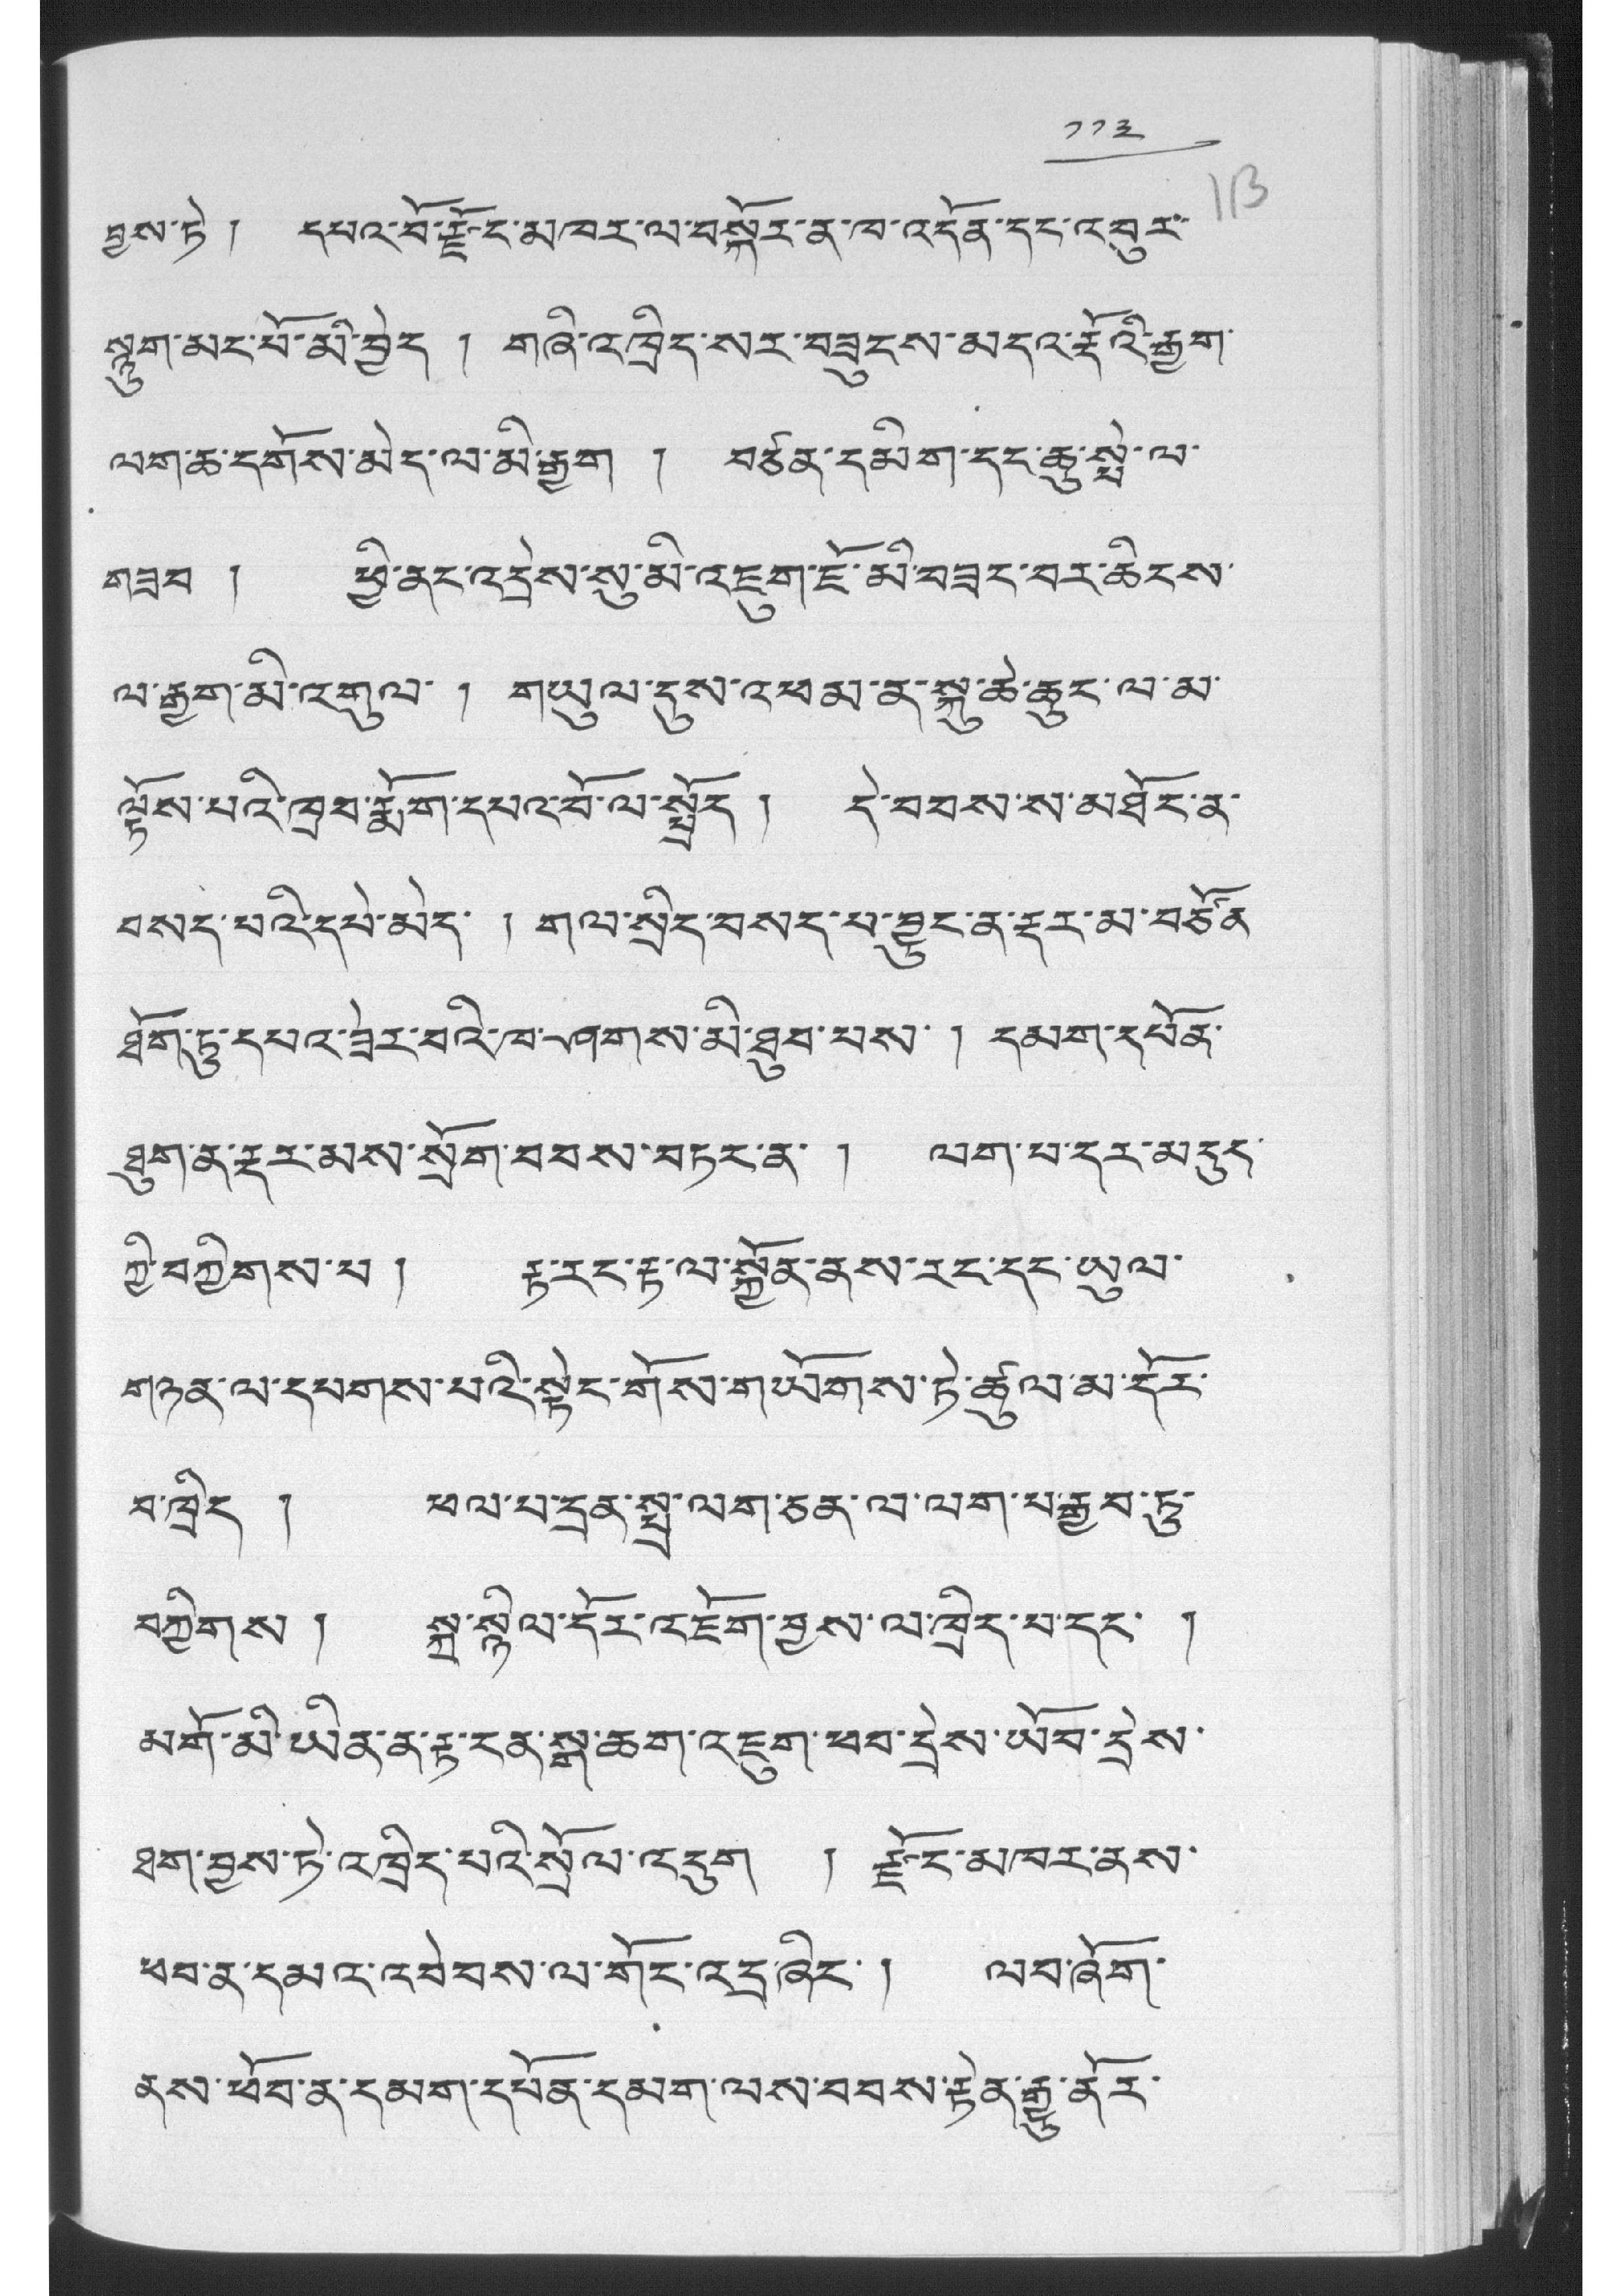༡༡༣
བྱས་ཏེ ། དཔའ་བོ་རྫོང་མཁར་ལ་བསྐོར་ན་ཁ་འདོན་དང་འབུར་
སྙུག་མང་པོ་མི་བྱེད ། གཞི་འཁྲིད་སར་བཟུངས་མདའ་རྡོའི་རྒྱག་
ལག་ཆ་དགོས་མེད་ལ་མི་རྒྱག ། བཙན་དམིག་དང་ཆུ་སསྤེ་ལ་
གཟབ ། ཕྱི་ནང་འདྲེས་སུ་མི་འཇུག་ཇོ་མི་བཟང་བར་ཆིངས་
ལ་རྒྱུག་མི་འགུལ་ ། གཡུལ་དུས་འཕམ་ན་སྐུ་ཆེ་ཆུང་ལ་མ་
ལྟོས་པའི་ཁྲབ་རྨོག་དཔའ་བོ་ལ་སྤྲོད ། དེ་བབས་ས་མཐོང་ན་
བསད་པའི་དཔེ་མེད་ ། གལ་སྲིད་བསད་པ་བྱུང་ན་རྡར་མ་བཙོན་
ཐོག་ཏུ་དཔའ་ཟེར་བའི་ཁ་ཤགས་མི་ཐུབ་པས་ ། དམག་དཔོན་
ཐུག་ན་རྡར་མས་སྲོག་བབས་བཏར་ན་ ། ལག་པ་དར་མདུད་
ཀྱི་བཀྱིགས་པ ། རྟ་རང་རྟ་ལ་སྐྱོན་ནས་རང་དང་ཡུལ་
གཉན་ལ་དམགས་པའི་སྟེང་གོས་གཡོགས་ཏེ་ཚུལ་མ་དོར་
བ་ཁྲིད ། ཕལ་པ་དྲན་སྤྲ་ལག་ཅན་ལ་ལག་མ་རྒྱབ་ཏུ་
བཀྱིགས ། སྐྲ་སྙིལ་དོར་འཇོག་བྱས་ལ་ཁྲིད་པ་དང་ །
མགོ་མི་ཡིན་ན་རྟ་ངན་སྒ་ཆག་འཇུག་ཕབ་དྲེས་ཡོབ་དྲེས་
ཐག་བྱས་ཏེ་འཁྲིད་པའི་སྲོལ་འདུག ། རྗོང་མཁར་ནས་
ཕབ་ན་དམའ་འབེབས་ལ་གོང་འདྲ་ཞིང་ ། ལབ་ཞོག་
ནས་ཕོབ་ན་དམག་དཔོན་དམག་ལས་བབས་རྟེན་རྒྱུ་ནོར་
